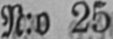N:o 25
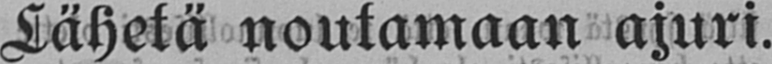Lähetä noutamaan ajuri.
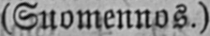(Suomennos.)
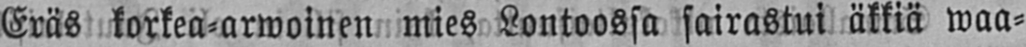Eräs korkea-arwoinen mies Lontoossa sairastui äkkiä waa-
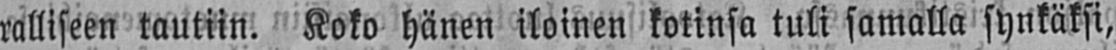ralliseen tautiin. Koko hänen iloinen kotinsa tuli samalla synkäksi,
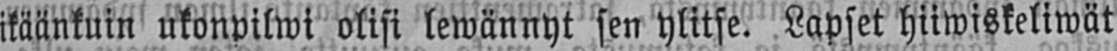ikäänkuin ukonpilwi olisi lewännyt sen ylitse. Lapset hiiwiskeliwät
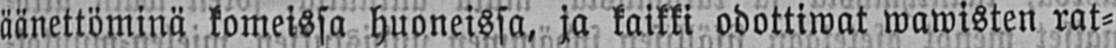äänettöminä komeissa huoneissa, ja kaikki odottiwat wawisten rat-
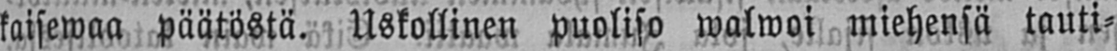kaisewaa päätöstä. Uskollinen puoliso walwoi miehensä tauti-
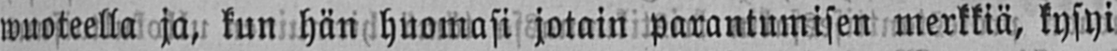wuoteella ja, kun hän huomasi jotain parantumisen merkkiä, kysyi
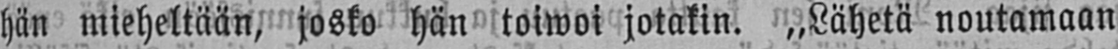hän mieheltään, josko hän toiwoi jotakin. „Lähetä noutamaan
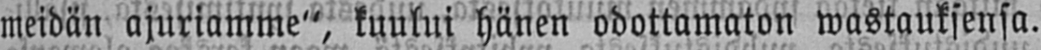meidän ajuriamme", kuului hänen odottamaton wastauksensa.
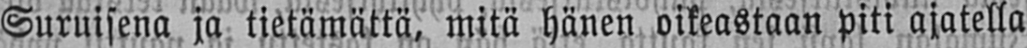Suruisena ja tietämättä, mitä hänen oikeastaan piti ajatella
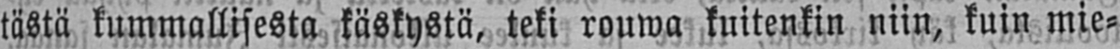tästä kummallisesta käskystä, teki rouwa kuitenkin niin, kuin mie-
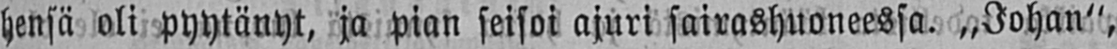hensä oli pyytänyt, ja pian seisoi ajuri sairashuoneessa. „Johan",
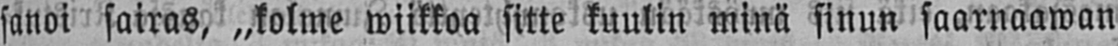sanoi sairas, „kolme wiikkoa sitte kuulin minä sinun saarnaawan
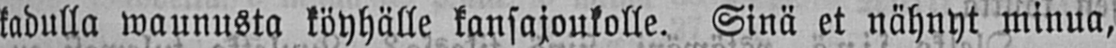kadulla waunusta köyhälle kansajoukolle. Sinä et nähnyt minua,
